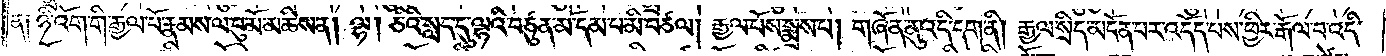ན༑ ཉི་འོག་གི་རྒྱལ་པོ་རྣམས་ལ་བུ་མོ་མཆིས་ན། ལྷ། ཅིའི་སླད་དུ་ལྷའི་བཙུན་མོ་དམ་པ་མི་བཙལ། རྒྱལ་པོས་སྨྲས་པ། གཞོན་ནུ་འདི་དག་ནི། རྒྱལ་སྲིད་མངོན་པར་འདོད་པས་ཕྱིར་རྒོལ་བ་འདི་
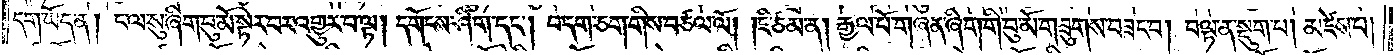དག་ཡོད་ན། ང་ལ་སུ་ཞིག་བུ་མོ་སྟེར་བར་འགྱུར་བ་ལྟ། དགོངས་ཤིག་དང༌། བདག་ཅག་གིས་བཙལ་ལོ། །ཇི་ཙམ་ན། རྒྱལ་པོ་གཞན་ཞིག་གི་བུ་མོ་གཟུགས་བཟང་བ། བལྟ་ན་སྡུག་པ། མཛེས་པ།
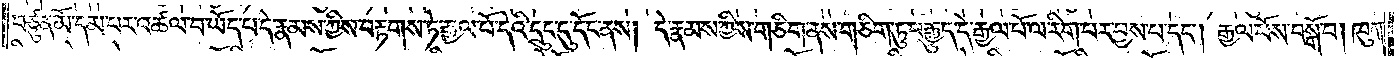བཙུན་མོ་དམ་པར་འཚལ་བ་ཡོད་པ་དེ་རྣམས་ཀྱིས་བརྟགས་ཏེ་རྒྱལ་པོ་དེའི་དྲུང་དུ་དོང་ནས། དེ་རྣམས་ཀྱིས་གཅིག་ནས་གཅིག་ཏུ་བརྒྱུད་དེ་རྒྱལ་པོ་ལ་རིག་པར་བྱས་པ་དང༌། རྒྱལ་པོས་བསྒོ་བ། ཁུག་
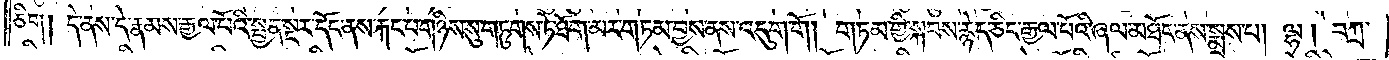ཅིག །དེ་ནས་དེ་རྣམས་རྒྱལ་པོའི་སྤྱན་སྔར་དོང་ནས་རྐང་པ་གཉིས་སུ་གཏུགས་ཏེ་ཐོག་མར་གཏམ་བྱས་ནས་འདུག་གོ །གཏམ་གྱི་སྐབས་རྙེད་ཅིང་རྒྱལ་པོའི་ཞལ་མཐོང་ནས་སྨྲས་པ། ལྷ། བཀྲ་
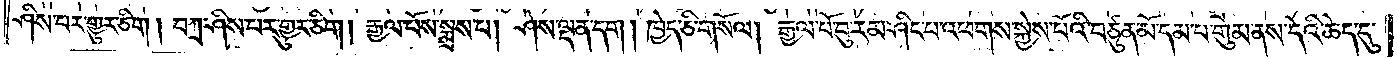ཤིས་པར་གྱུར་ཅིག །བཀྲ་ཤིས་པར་གྱུར་ཅིག །རྒྱལ་པོས་སྨྲས་པ། ཤེས་ལྡན་དག །ཁྱེད་ཅི་གསོལ། རྒྱལ་པོ་བུ་རམ་ཤིང་པ་འཕགས་སྐྱེས་པོའི་བཙུན་མོ་དམ་པ་གུམ་ནས་དེའི་ཆེད་དུ་
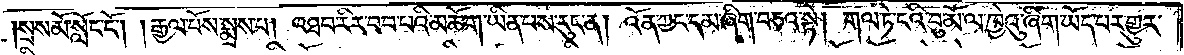སྲས་མོ་སློང་ངོ༌། །རྒྱལ་པོས་སྨྲས་པ། འཐབ་རིར་བབ་པའི་མཆོག་ཡིན་པས་རུང་ན། འོན་ཀྱང་དམ་ཞིག་བཅའ་སྟེ། གལ་ཏེ་ངའི་བུ་མོ་ལ་ཁྱེའུ་ཞིག་ཡོད་པར་གྱུར་
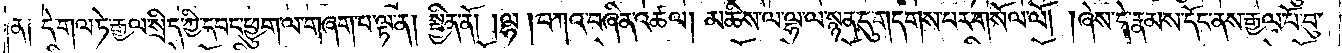ན༑ དེ་གལ་ཏེ་རྒྱལ་སྲིད་ཀྱི་དབང་ཕྱུག་ལ་གཞག་པ་ལྟ་ན། སྦྱིན་ནོ། །ལྷ། བཀའ་བཞིན་འཚལ། མཆིས་ལ་ལྷ་ལ་སྙན་དུ་གདགས་པར་གསོལ་ལོ། །ཞེས་དེ་རྣམས་དོང་ནས་རྒྱལ་པོ་བུ་
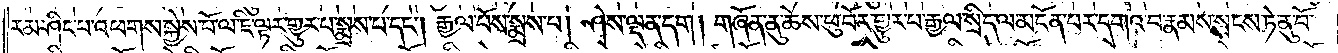རམ་ཤིང་པ་འཕགས་སྐྱེས་པོ་ལ་ཇི་ལྟར་གྱུར་པ་སྨྲས་པ་དང༌། རྒྱལ་པོས་སྨྲས་པ། ཤེས་ལྡན་དག །གཞོན་ནུ་ཆེས་ཕུ་བོར་གྱུར་པ་རྒྱལ་སྲིད་ལ་མངོན་པར་དགའ་བ་རྣམས་སྤངས་ཏེ་ནུ་བོ་
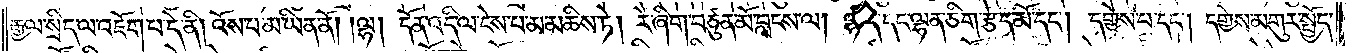རྒྱལ་སྲིད་ལ་འཇོག་པ་དེ་ནི། འོས་པ་མ་ཡིན་ནོ། །ལྷ། དོན་འདི་ལ་ངེས་པ་མ་མཆིས་ཏེ། རེ་ཞིག་བཙུན་མོ་བླངས་ལ། ལྷ་དེ་དང་ལྷན་ཅིག་རྩེད་མོ་དང༌། དགྱེས་པ་དང༌། དགྱེས་མགུར་སྤྱོད་
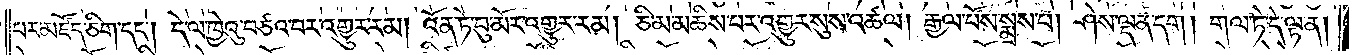པར་མཛོད་ཅིག་དང༌། དེ་ལ་ཁྱེའུ་བཙའ་བར་འགྱུར་རམ། འོན་ཏེ་བུ་མོར་འགྱུར་རམ། ཅི་མ་མཆིས་པར་འགྱུར་སུས་འཚལ། རྒྱལ་པོས་སྨྲས་པ། ཤེས་ལྡན་དག །གལ་ཏེ་དེ་ལྟ་ན།
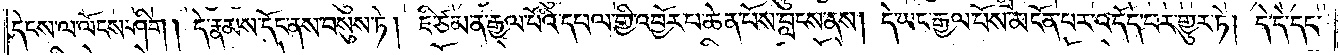དེངས་ལ་ལོངས་ཤིག །དེ་རྣམས་དོང་ནས་བསུས་ཏེ། ཇི་ཙམ་ན་རྒྱལ་པོའི་དཔལ་གྱི་འབྱོར་པ་ཆེན་པོས་བླངས་ནས། དེ་ཡང་རྒྱལ་པོས་མངོན་པར་འདོད་པར་གྱུར་ཏེ། དེ་དེ་དང་
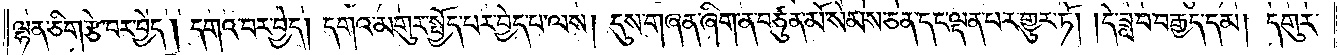ལྷན་ཅིག་རྩེ་བར་བྱེད། དགའ་བར་བྱེད། དགའ་མགུར་སྤྱོད་པར་བྱེད་པ་ལས། དུས་གཞན་ཞིག་ན་བཙུན་མོ་སེམས་ཅན་དང་ལྡན་པར་གྱུར་ཏོ། །དེ་ཟླ་བ་བརྒྱད་དམ། དགུར་
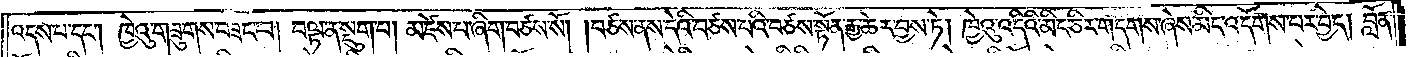འདས་པ་དང༌། ཁྱེའུ་གཟུགས་བཟང་བ། བལྟ་ན་སྡུག་པ། མཛེས་པ་ཞིག་བཙས་སོ། །བཙས་ནས་དེའི་བཙས་པའི་བཙས་སྟོན་རྒྱ་ཆེར་བྱས་ཏེ། ཁྱེའུ་འདིའི་མིང་ཅིར་གདགས་ཞེས་མིང་འདོགས་པར་བྱེད། བློན་
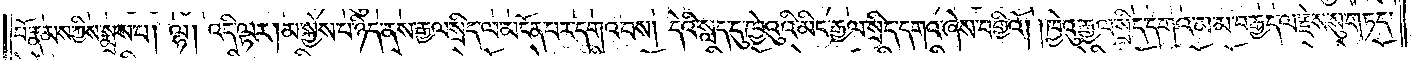པོ་རྣམས་ཀྱིས་སྨྲས་པ། ལྷ། འདི་ལྟར། མ་སྐྱེས་པ་ཉིད་ནས་རྒྱལ་སྲིད་ལ་མངོན་པར་དགའ་བས། དེའི་སླད་དུ་ཁྱེའུའི་མིང་རྒྱལ་སྲིད་དགའ་ཞེས་བགྱིའོ། །ཁྱེའུ་རྒྱལ་སྲིད་དགའ་མ་མ་བརྒྱད་ལ་རྗེས་སུ་གཏད་
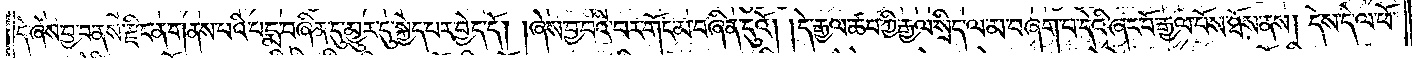དེ་ཞེས་བྱ་བ་ནས་རྫིང་ན་གནས་པའི་པདྨ་བཞིན་དུ་མྱུར་དུ་སྐྱེད་པར་བྱེད་དོ། །ཞེས་བྱ་བའི་བར་གོང་མ་བཞིན་དུའོ། །དེ་རྒྱལ་ཚབ་ཀྱི་རྒྱལ་སྲིད་ལ་མ་བཞག་པ་དེའི་ཞང་པོ་རྒྱལ་པོས་ཐོས་ནས། དེས་དེ་ལ་ཕོ་
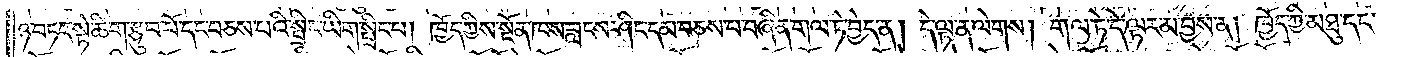ཉ་བཏང་སྟེ་ཚིག་རྩུབ་པོ་དང་བཅས་པའི་སྤྲིང་ཡིག་སྤྲིང་པ། ཁྱོད་ཀྱིས་སྔོན་ཁས་བླངས་ཤིང་དམ་བཅས་པ་བཞིན་གལ་ཏེ་བྱེད་ན། དེ་ལྟ་ན་ལེགས། གལ་ཏེ་དེ་ལྟར་མ་བྱས་ན། ཁྱོད་ཀྱི་མཐུ་དང་
